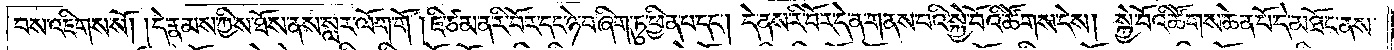བས་འཇིགས་སོ། །དེ་རྣམས་ཀྱིས་ཐོས་ནས་སླར་ལོག་གོ །ཇི་ཙམ་ན་རི་བོར་དང་ཉེ་བ་ཞིག་ཏུ་ཕྱིན་པ་དང༌། དེ་ནས་རི་བོར་དེ་ན་གནས་པའི་སྐྱེ་བོའི་ཚོགས་དེས། སྐྱེ་བོའི་ཚོགས་ཆེན་པོ་དེ་མཐོང་ནས་
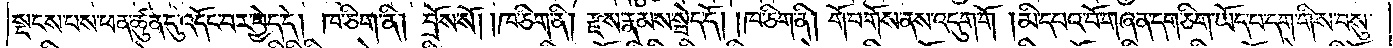སྡངས་པས་ཕན་ཚུན་དུ་འདོང་བར་བྱེད་དེ། ཁ་ཅིག་ནི། བྲོས་སོ། །ཁ་ཅིག་ནི། རྫས་རྣམས་སྦེད་དོ། །ཁ་ཅིག་ནི། གོ་བགོས་ནས་འདུག་གོ །མི་དཔའ་བོ་གཞན་དག་ཅིག་ཡོད་པ་དག་གིས་བསུ་
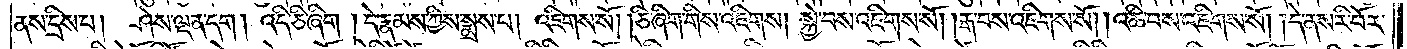ནས་དྲིས་པ། ཤེས་ལྡན་དག །འདི་ཅི་ཞིག །དེ་རྣམས་ཀྱིས་སྨྲས་པ། འཇིགས་སོ། །ཅི་ཞིག་གིས་འཇིགས། སྐྱེ་བས་འཇིགས་སོ། །རྒ་བས་འཇིགས་སོ། །འཆི་བས་འཇིགས་སོ། །དེ་ནས་རི་བོར་
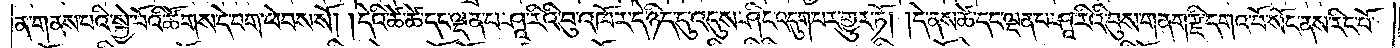ན་གནས་པའི་སྐྱེ་བོའི་ཚོགས་དེ་བག་ཕེབས་སོ། །དེའི་ཚེ་ཚེ་དང་ལྡན་པ་ཤཱ་རིའི་བུ་འཁོར་དེ་ཉིད་དུ་འདུས་ཤིང་འདུག་པར་གྱུར་ཏོ། །དེ་ནས་ཚེ་དང་ལྡན་པ་ཤཱ་རིའི་བུས་གནག་རྫི་དགའ་བོ་སོང་ནས་རིང་པོ་
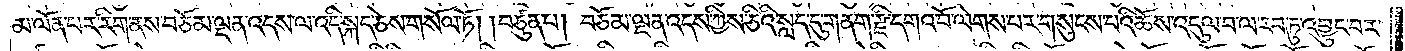མ་ལོན་པར་རིག་ནས་བཅོམ་ལྡན་འདས་ལ་འདི་སྐད་ཅེས་གསོལ་ཏོ། །བཙུན་པ། བཅོམ་ལྡན་འདས་ཀྱིས་ཅིའི་སླད་དུ་གནག་རྫི་དགའ་བོ་ལེགས་པར་གསུངས་པའི་ཆོས་འདུལ་བ་ལ་རབ་ཏུ་འབྱུང་བར་
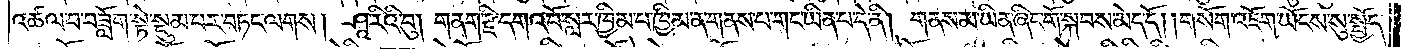འཚལ་བ་བཟློག་སྟེ་སྡུམ་པར་བཏང་ལགས། ཤཱ་རིའི་བུ། གནག་རྫི་དགའ་བོ་སླར་ཁྱིམ་པ་ཁྱིམ་ན་གནས་པ་གང་ཡིན་པ་དེ་ནི། གནས་མ་ཡིན་ཞིང་གོ་སྐབས་མེད་དོ། །གསོག་འཇོག་ཡོངས་སུ་སྤྱོད་
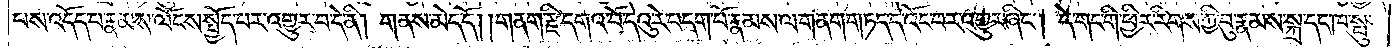པས་འདོད་པ་རྣམས་ལོངས་སྤྱོད་པར་འགྱུར་བ་དེ་ནི། གནས་མེད་དོ། །གནག་རྫི་དགའ་བོ་དེའུ་རེ་བདག་པོ་རྣམས་ལ་གནག་གཏད་དེ་འོང་བར་འགྱུར་ཞིང༌། དེ་གང་གི་ཕྱིར་རིགས་ཀྱི་བུ་རྣམས་སྐྲ་དང་ཁ་སྤུ་
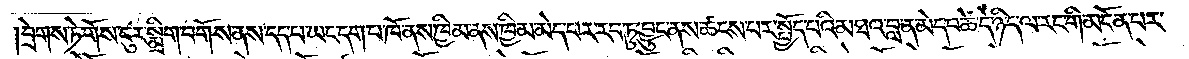།བྲེགས་ཏེ་གོས་ངུར་སྨྲིག་བགོས་ནས་དད་པ་ཡང་དག་པ་ཁོ་ནས་ཁྱིམ་ནས་ཁྱིམ་མེད་པར་རབ་ཏུ་བྱུང་ནས་ཚངས་པར་སྤྱོད་པའི་མཐའ་བླ་ན་མེད་པ་ཚེ་དེ་ཉིད་ལ་རང་གི་མངོན་པར་
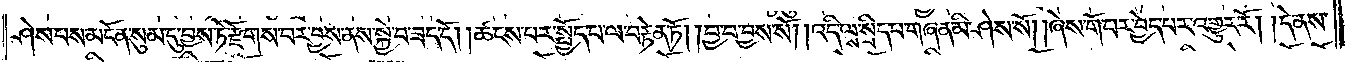ཤེས་པས་མངོན་སུམ་དུ་བྱས་ཏེ་རྫོགས་པར་བྱས་ནས་སྐྱེ་བ་ཟད་དོ། །ཚངས་པར་སྤྱོད་པ་ལ་བརྟེན་ཏོ། །བྱ་བ་བྱས་སོ། །འདི་ལས་སྲིད་པ་གཞན་མི་ཤེས་སོ། །ཞེས་གོ་པར་བྱེད་པར་འགྱུར་རོ། །དེ་ནས་
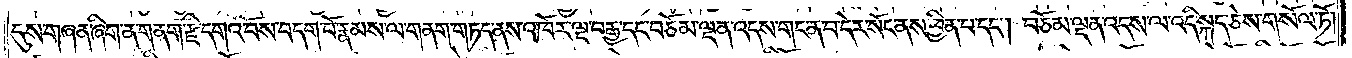དུས་གཞན་ཞིག་ན་གནག་རྫི་དགའ་བོས་བདག་པོ་རྣམས་ལ་གནག་གཏད་ནས་འཁོར་ལྔ་བརྒྱ་དང་བཅོམ་ལྡན་འདས་གང་ན་བ་དེར་སོང་ནས་ཕྱིན་པ་དང༌། བཅོམ་ལྡན་འདས་ལ་འདི་སྐད་ཅེས་གསོལ་ཏོ།
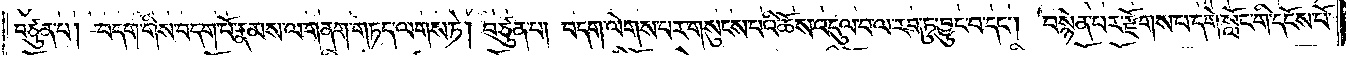བཙུན་པ། བདག་གིས་བདག་པོ་རྣམས་ལ་གནག་གཏད་ལགས་ཏེ། བཙུན་པ། བདག་ལེགས་པར་གསུངས་པའི་ཆོས་འདུལ་བ་ལ་རབ་ཏུ་བྱུང་བ་དང༌། བསྙེན་པར་རྫོགས་པ་དགེ་སློང་གི་དངོས་པོ་
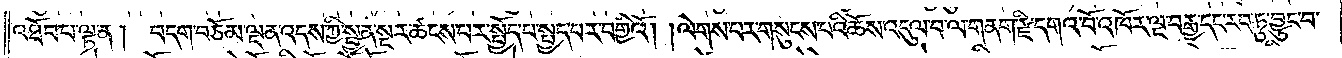འཐོབ་པ་ལྟ་ན། བདག་བཅོམ་ལྡན་འདས་ཀྱི་སྤྱན་སྔར་ཚངས་པར་སྤྱོད་པ་སྤྱད་པར་བགྱིའོ། །ལེགས་པར་གསུངས་པའི་ཆོས་འདུལ་བ་ལ་གནག་རྫི་དགའ་བོ་འཁོར་ལྔ་བརྒྱ་དང་རབ་ཏུ་བྱུང་བ་
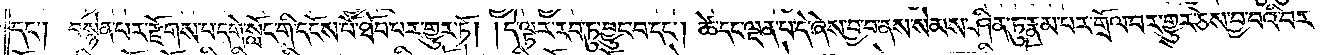དང༌། བསྙེན་པར་རྫོགས་པ་དགེ་སློང་གི་དངོས་པོ་ཐོབ་པར་གྱུར་ཏོ། །དེ་ལྟར་རབ་ཏུ་བྱུང་བ་དང༌། ཚེ་དང་ལྡན་པ་དེ་ཞེས་བྱ་བ་ནས་སེམས་ཤིན་ཏུ་རྣམ་པར་གྲོལ་བར་གྱུར་ཅེས་བྱ་བའི་བར་
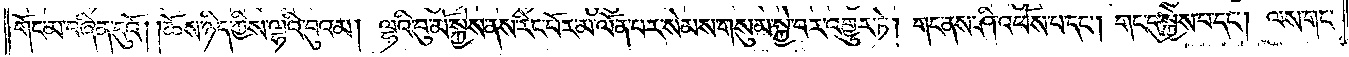གོང་མ་བཞིན་དུའོ། །ཆོས་ཉིད་ཀྱིས་ལྷའི་བུའམ། ལྷའི་བུ་མོ་སྐྱེས་ནས་རིང་པོར་མ་ལོན་པར་སེམས་གསུམ་སྐྱེ་བར་འགྱུར་ཏེ། གང་ནས་ཤི་འཕོས་པ་དང༌། གང་དུ་སྐྱེས་པ་དང༌། ལས་གང་
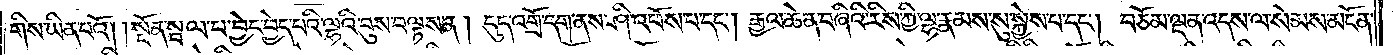གིས་ཡིན་པའོ། །སྔོན་སྦལ་པ་བྱེད་བྱེད་པའི་ལྷའི་བུས་བལྟས་ན། དུད་འགྲོ་དག་ནས་ཤི་འཕོས་པ་དང༌། རྒྱལ་ཆེན་བཞིའི་རིས་ཀྱི་ལྷ་རྣམས་སུ་སྐྱེས་པ་དང༌། བཅོམ་ལྡན་འདས་ལ་སེམས་མངོན་
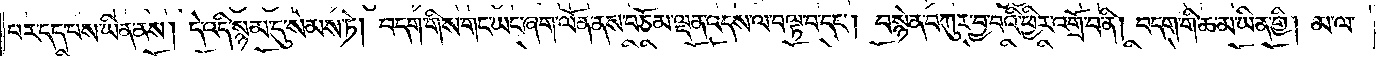པར་དད་པས་ཡིན་ནས། དེ་འདི་སྙམ་དུ་སེམས་ཏེ། བདག་གིས་གང་ཡང་ཞག་ལོན་ནས་བཅོམ་ལྡན་འདས་ལ་བལྟ་བ་དང༌། བསྙེན་བཀུར་བྱ་བའི་ཕྱིར་འགྲོ་བ་ནི། བདག་གི་ཆ་མ་ཡིན་གྱི། མ་ལ་
